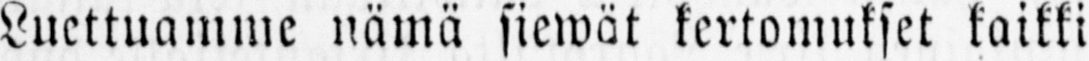Luettuamme nämä siewät kertomukset kaikki
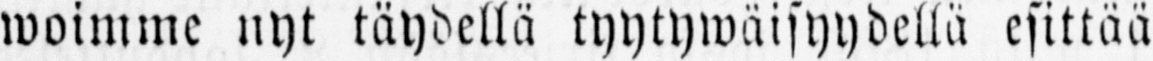woimme nyt täydellä tyytywäisyydellä esittää
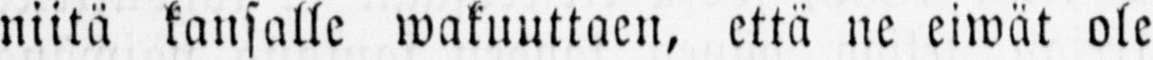niitä kansalle wakuuttaen, että ne eiwät ole
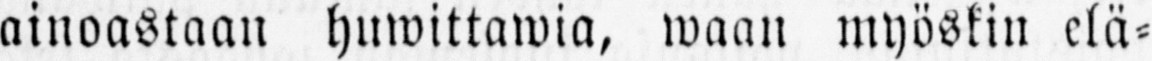ainoastaan huwittawia, waan myöskin elä-
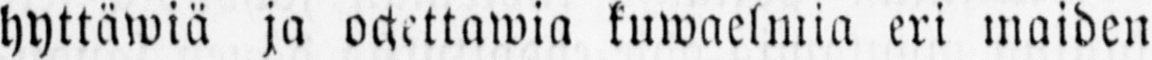hyttäwiä ja opettawia kuwaelmia eri maiden
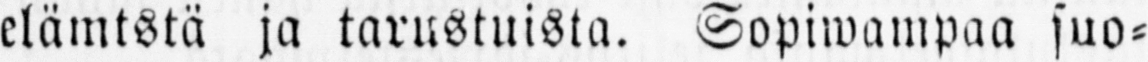elämtstä ja tarustuista. Sopiwampaa suo-
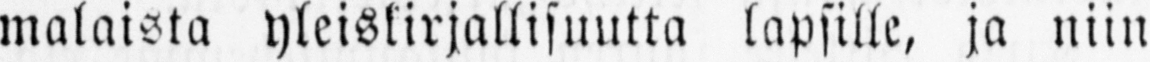malaista yleiskirjallisuutta lapsille, ja niin
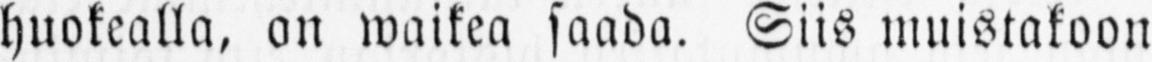huokealla, on waikea saada. Siis muistakoon
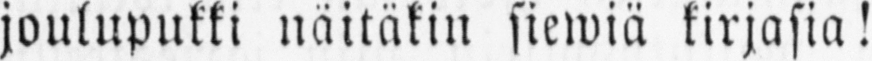joulupukki näitäkin siewiä kirjasia!
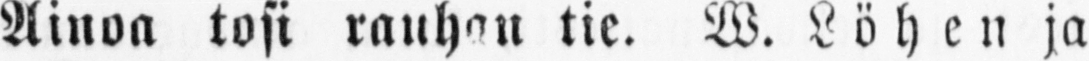Ainoa tosi rauhan tie. W. Löhen ja
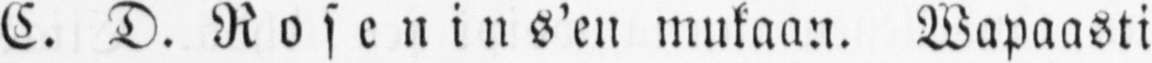C. D. Rosenins'en mukaan. Wapaasti
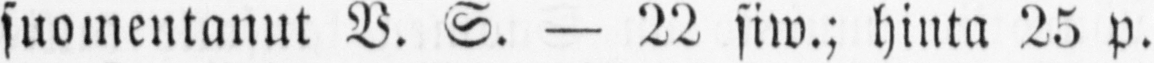suomentanut V. S. — 22 siw.; hinta 25 p.
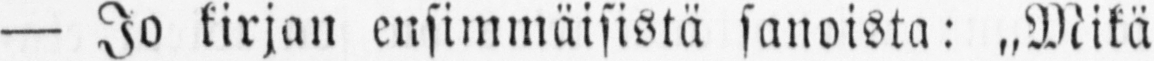— Jo kirjan ensimmäisistä sanoista: „Mikä
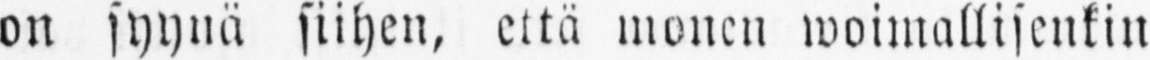on syynä siihen, että monen woimallisenkin
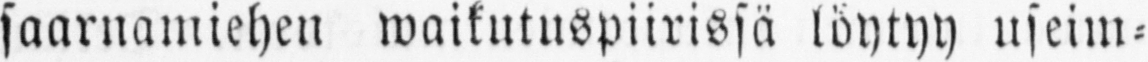saarnamiehen waikutuspiirissä löytyy useim-
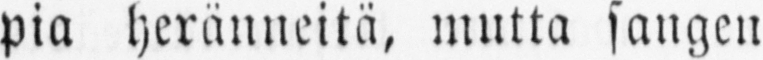pia heränneitä, mutta sangen wanhurskasten
